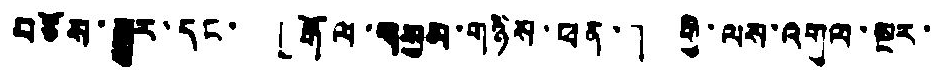བཅོས་སྒྱུར་དང་「རྒོལ་གསུམ་གཉིས་ཕན་」གྱི་ལས་འགུལ་སྔར་
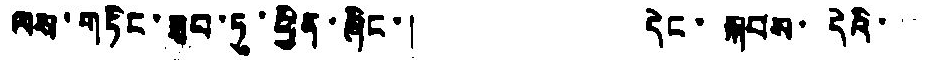ལས་གཏིང་ཟབ་ཏུ་ཕྱིན་ཞིང་། དེང་སྐབས་དེའི་
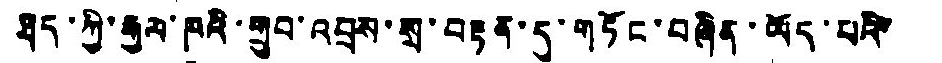ཐད་ཀྱི་རྒྱལ་ཁའི་གྲུབ་འབྲས་སྲ་བརྟན་དུ་གཏོང་བཞིན་ཡོད་པའི་
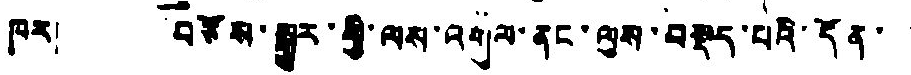ཁར། བཙོས་སྒྱུར་གྱི་ལས་འགུལ་ནང་ལུས་བསྡད་པའི་དོན་་
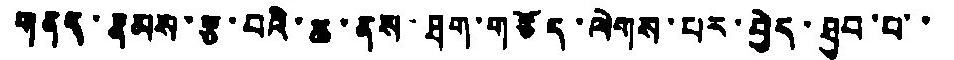གནད་རྣམས་རྩ་བའི་ཆ་ནས་ཐག་གཅོད་ལེགས་པར་བྱེད་ཐུབ་པ་་
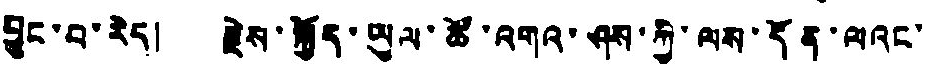བྱུང་བ་རེད། རྗེས་སྐྱོད་ཡུལ་ཚོ་འགའ་ཤས་ཀྱི་ལས་དོན་ལའང་
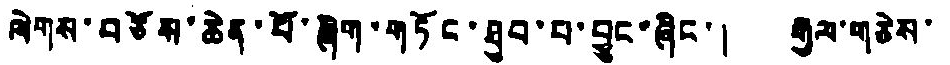ལེགས་བཅོས་ཆེན་པོ་ཞིག་གཏོང་ཐུབ་པ་བྱུང་ཞིང་། རྒྱལ་གཅེས་
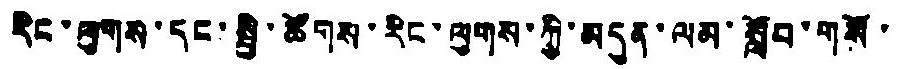རིང་ལུགས་དང་སྤྱི་ཚོགས་རིང་ལུགས་ཀྱི་མདུན་ལམ་སློབ་གསོ་
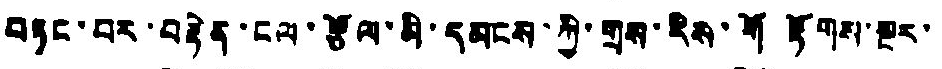བཏང་བར་བརྟེན་ངལ་རྩོལ་མི་དམངས་ཀྱི་གྲས་རིས་གོ རྟོགས་སྔར་
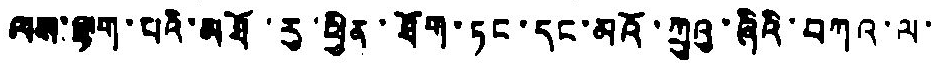ལས་ལྷག་པའི་མཐོ་རུ་ཕྱིན་ཐོག་ཏང་དང་མའོ་ཀྲུའུ་ཞིའི་བཀའ་ལ་
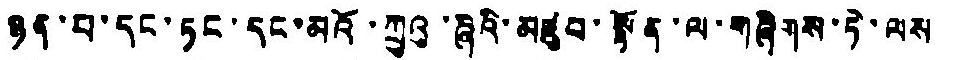ཉན་པ་དང་ཏང་དང་མའོ་ཀྲུའུ་ཞིའི་མཛུབ་སྟོན་ལ་གཞིགས་ཏེ་ལས
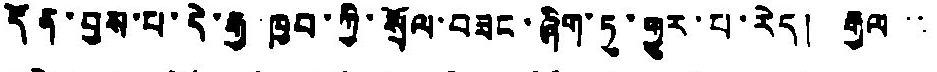དོན་བྱས་པ་དེ་རྒྱ ཁྱབ་ཀྱི་སྲོལ་བཟང་ཞིག་ཏུ་རྒྱུར་པ་རེད། རྒྱལ་་
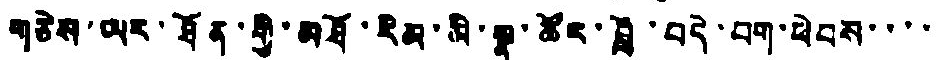གཅེས་ཡར་ཐོན་གྱི་མཐོ་རིམ་མི་སྣ་ཚོར་བློ་བདེ་བག་ཕེབས་་་་
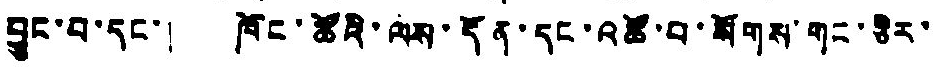བྱུང་བ་དང་། ཁོང་ཚོའི་ལས་དོན་དང་འཚོ་བ་སོགས་གང་ཅིར་
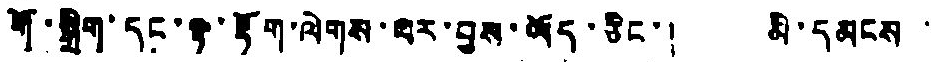གོ་སྒྲིག་དང་ལྟ་རྟོག་ལེགས་པར་བྱས་ཡོད་ཅིང་། མི་དམངས་
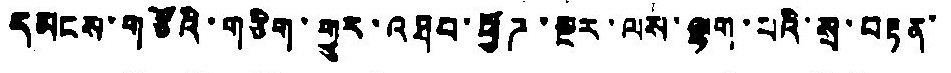དམངས་གཙོའི་གཅིག་གྱུར་འཐབ་ཕྱོཌ་སྔར་ལས་ལྷག་པའི་སྲ་བརྟན་
